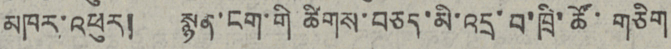མཁར་འཕུར།  སྙན་ངག་གི་ཚིགས་བཅད་མི་འདྲ་བ་ཁྲི་ཚོ་གཅིག
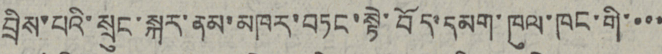བྲིས་པའི་སྲུང་སྐར་ནམ་མཁར་བཏང་སྟེ་བོད་དམག་ཁུལ་ཁང་གི་་་་
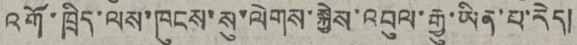འགོ་ཁྲིད་ལས་ཁུངས་སུ་ལེགས་སྐྱེས་འབུལ་རྒྱུ་ཡིན་པ་རེད།
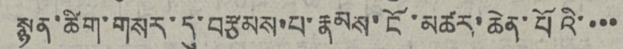སྙན་ཚིག་གསར་དུ་བརྩམས་པ་རྣམས་ངོ་མཚར་ཆེན་པོའི་་་་
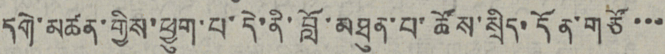དགེ་མཚན་གྱིས་ཕྱུག་པ་དེ་ནི་བློ་མཐུན་པ་ཚོས་སྲིད་དོན་གཙོ་་་་
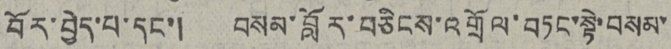བོར་བྱེད་པ་དང་། བསམ་བློར་བཅིངས་འགྲོལ་བཏང་སྟེ་བསམ་
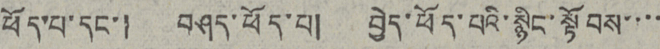ཕོད་པ་དང་། བཤད་ཕོད་པ། བྱེད་ཕོད་པའི་སྙིང་སྟོབས་་་་
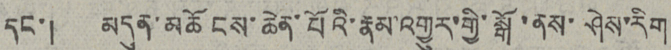དང་། མདུན་མཆོངས་ཆེན་པོའི་རྣམ་འགྱུར་གྱི་སྒོ་ནས་ཤེས་རིག
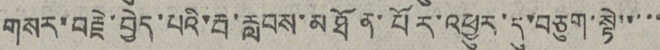གསར་བརྗེ་བྱེད་པའི་རྦ་རླབས་མཐོན་པོར་འཕྱུར་དུ་བཅུག་སྟེ་་་་་
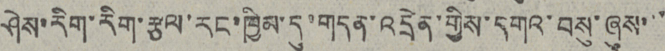ཤེས་རིག་རིག་རྩལ་རང་ཁྱིམ་དུ་གདན་འདྲེན་གྱིས་དགའ་བསུ་ཞུས་་་
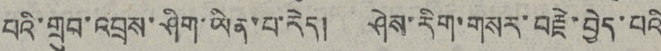པའི་གྲུབ་འབྲས་ཤིག་ཡིན་པ་རེད། ཤེས་རིག་གསར་བརྗེ་བྱེད་པའི
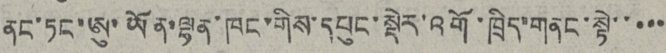ནང་ཏང་ཨུ་ཡོན་ལྷན་ཁང་གིས་དཔུང་སྡེར་འགོ་ཁྲིད་གནང་སྟེ་་་་་
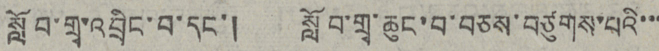སློབ་གྲྭ་འབྲིང་བ་དང་། སློབ་གྲྭ་ཆུང་བ་བཅས་བཙུགས་པའི་་་
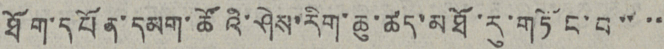ཐོག་དཔོན་དམག་ཚོའི་ཤེས་རིག་ཆུ་ཚད་མཐོ་རུ་གཏོང་བ་་་་
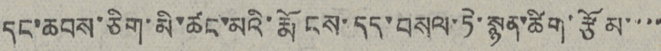དང་ཆབས་ཅིག་མི་ཚང་མའི་རྨོངས་དད་བསལ་ཏེ་སྙན་ཚིག་རྩོམ་་་་
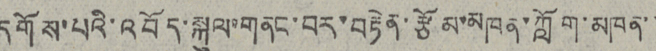དགོས་པའི་འབོད་སྐུལ་གནང་བར་བརྟེན་རྩོམ་མཁན་ཀློག་མཁན་་
